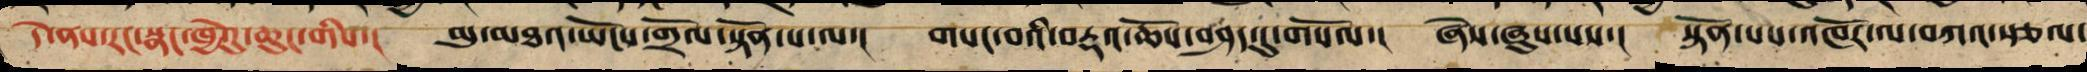དེ་ནས་རང་སྣང་ཁྱེའུ་ཆུང་གིས་། མུ་མཐའ་ཡོངས་གྲོལ་སྟོན་པ་ལ་། གསང་བའི་བརྡའ་ཆོས་བཤད་དུ་གསོལ་། ཞེས་ཞུས་པས་། སྟོན་པས་འཁོར་ལ་བཀའ་སྩལ་
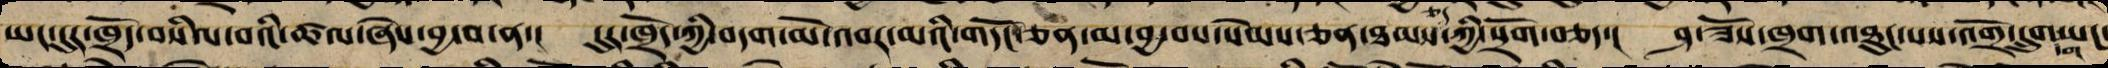ཡང་དུར་ཁྲོད་བསིལ་བའི་ཚལ་ཞེས་བྱ་བ་ན་། དུར་ཁྲོད་ཀྱི་བདག་མོ་འབར་མའི་གདོང་ཅན་མ་བྱ་བས་སེམས་ཅན་ཐམས་ཅད་ཀྱི་སྲོག་བཅད་། ཤ་ཟོས་ཁྲག་འཐུངས་པས་འགྲོ་དྲུག་གཡང་
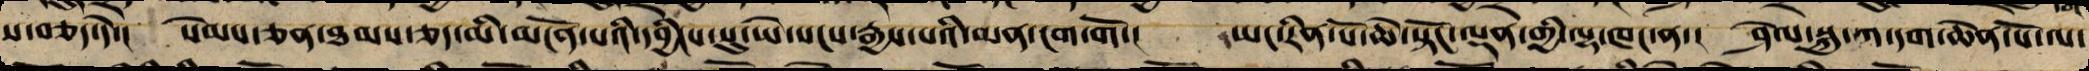ས་བཅད་དེ་། སེམས་ཅན་ཐམས་ཅད་མི་མངོན་པའི་དབྱིངས་སུ་ཡེ་སངས་རྒྱས་པའི་མན་ངག་གོ་། ཡང་རིན་པོ་ཆེ་སྟོང་ལྡན་གྱི་ལྷ་ཁང་ན་། ཤེལ་སྐུ་ཀ་དག་ཆེན་པོ་ལ་
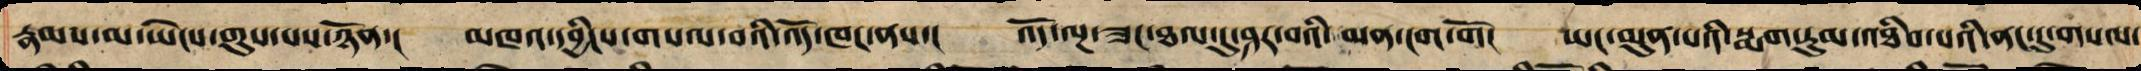རྣམས་མ་ཡེངས་གུས་པར་ཉོན་། མཁའ་དབྱིངས་གསལ་བའི་འོད་ཁང་ནས་། འོད་ལྔ་ཟང་ཐལ་དུ་ཤར་བའི་མན་ངག་གོ་། ཡང་མུན་པའི་སྨག་རུམ་འཐིབས་པའི་ནང་དུ་གསལ་
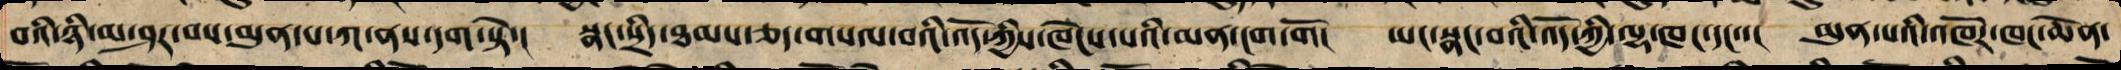བའི་ཉི་མ་ཤར་བས་མུན་པ་ཀ་ནས་དག་སྟེ་། སྣང་སྲིད་ཐམས་ཅད་གསལ་བའི་འོད་ཀྱིས་ཁེངས་པའི་མན་ངག་གོ། ཡང་སྣང་བའི་འོད་ཀྱི་ལྷ་ཁང་དང་་། མུན་པའི་འཁོར་ཁང་ཆེན་
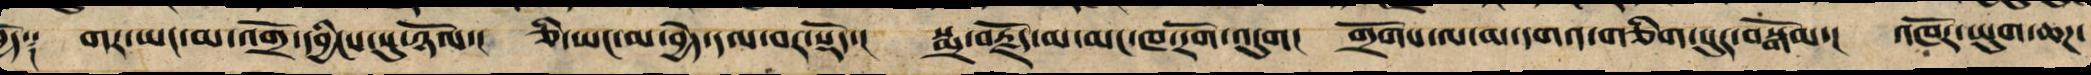ཁྱོད༑ གར་ཡང་མ་འགྲོ་དབྱིངས་སུ་ཉོལ་། ཅི་ཡང་མ་བྱེད་དལ་བར་སྡོད་། སྨྲ་བརྗོད་མ་མང་ཁ་རོག་འདུག། གྲོགས་ལ་མ་དགའ་གཅིག་པུར་བསྒོམ་། འཁོར་ཡུལ་ཆཌ་
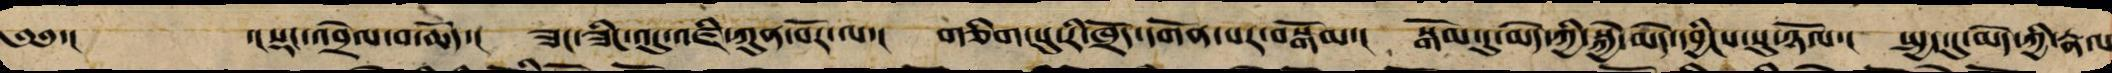༄༅་།  ་།སྡང་འབྲེལ་བ་ཆོད་། ཟང་ཟིང་འདུ་འཛི་ཀུན་བོར་ལ་། གཅིག་པུར་རི་ཁྲོད་དགོན་པར་བསྒོམས་། སྒོམ་དུ་མེད་ཀྱིས་སྐྱེ་མེད་དབྱིངས་སུ་ཉོལ་། སྤྱད་དུ་མེད་ཀྱིས་རྣལ
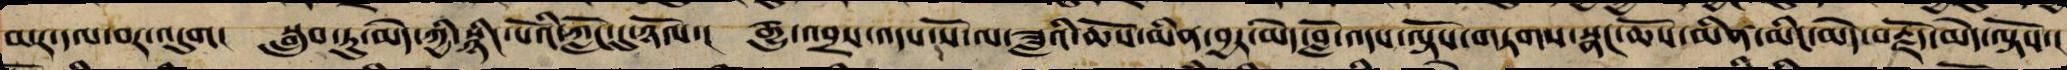མར་དལ་པར་འདུག། སྒྲུབ་ཏུ་མེད་ཀྱིས་སྙིང་པོའི་ཀློང་དུ་ཉོལ་། རྒྱུ་འབྲས་འདས་སོ་ལ་ཟླའི་ཆོས་མིན་བྱར་མེད་བློ་འདས་ལྟོས་བཏགས་སྣང་ཆོས་མིན་མིང་མེད་བརྗོད་མེད་ལྟོས་།
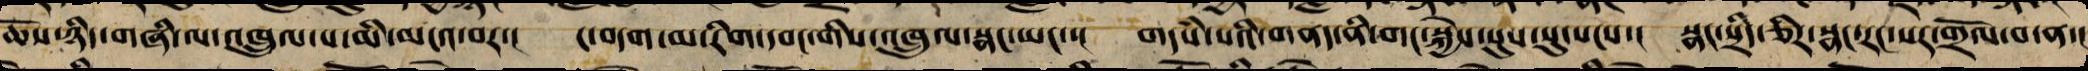ཆོས་ཉིད་གཞི་ལ་འཁྲུལ་པ་མི་མངའ་བར་། ང་བདག་མ་རིག་དབང་གིས་འཁྲུལ་སྣང་ཡང་་། གདཾས་པའི་གནད་ནི་གང་སྐྱེས་དུས་སུ་སངས་། སྣང་སྲིད་ཅིར་སྣང་རང་སར་གྲོལ་བ་ན་།
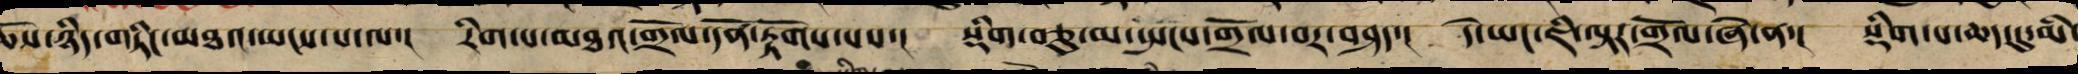ཆོས་ཉིད་གཏིང་མཐའ་ཡངས་པ་ལ་། རིག་པ་མཐའ་གྲོལ་དོན་རྟོགས་པས་། སྡིག་བཅུ་མ་སྤངས་གྲོལ་བར་བཤད་། དེ་ཡང་ཇི་ལྟར་གྲོལ་ཞེ་ན་། སྡིག་པ་ཆད་དུ་མི་
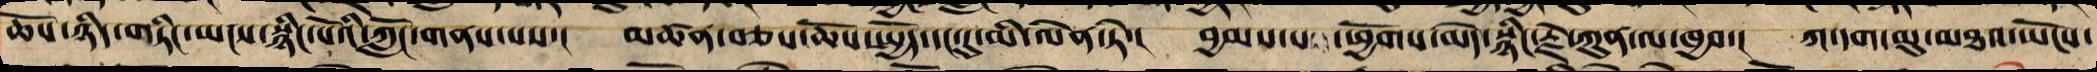ཆོས་ཉིད་གཏིང་ཡངས་སྙིང་པོའི་ཀློང་གནས་པས་། མཚན་བཅས་ཆོས་སྤྱོད་དང་དུ་མི་ལེན་ཏེ་། བྱམས་པ་ཕྱོགས་མེད་སྙིང་རྗེ་ཀུན་ལ་ཁྱབ་། ཀ་དག་མུ་མཐའ་ཡོངས་
